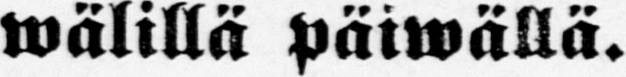wälillä päiwällä.
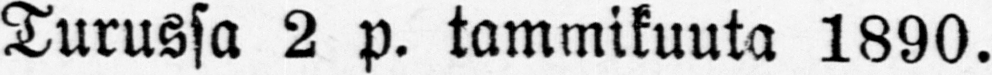Turussa 2 p. tammikuuta 1890.
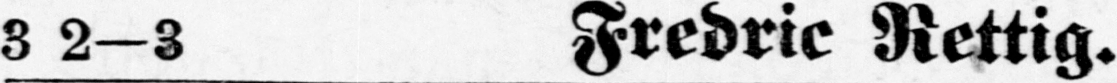3 2-3 Fredric Rettig.
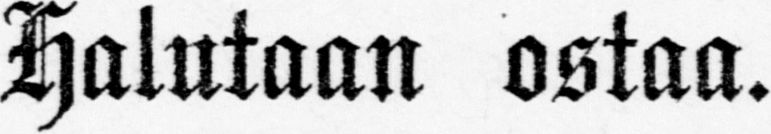Halutaan ostaa.
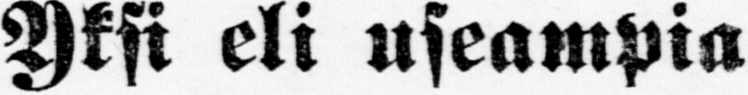Yksi eli useampia
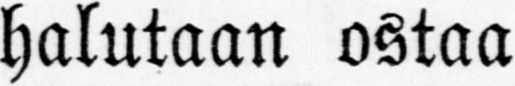halutaan ostaa
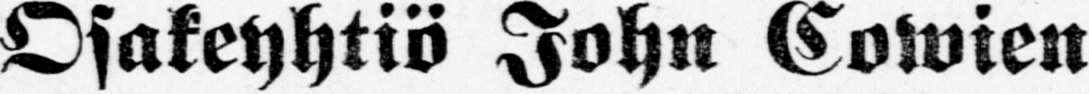Osakeyhtiö John Cowien
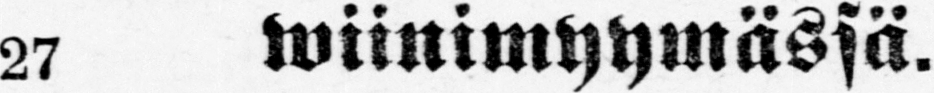27 wiinimyymässä.
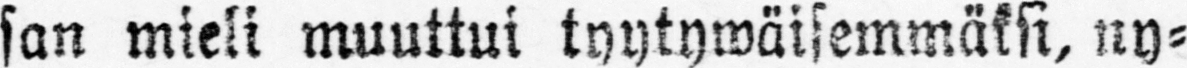san mieli muuttui tyytywäisemmäksi, ny-
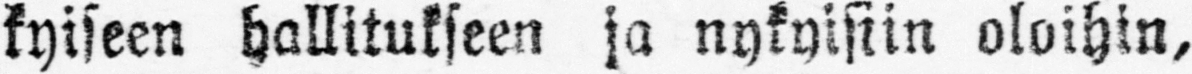kyiseen hallitukseen ja nykyisiin oloihin,
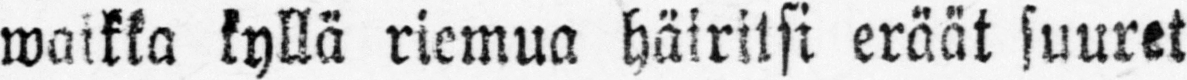waikka kyllä riemua häiritsi eräät suuret
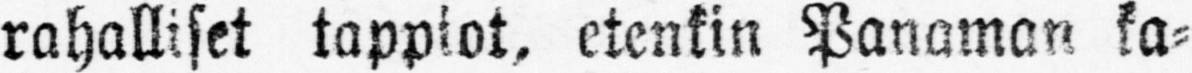rahalliset tappiot, etenkin Panaman kah
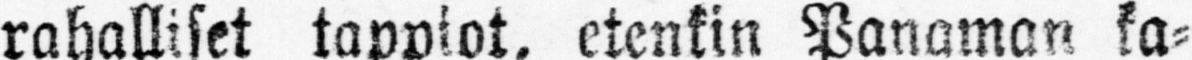nawan huono menestys. Mainitun ka-
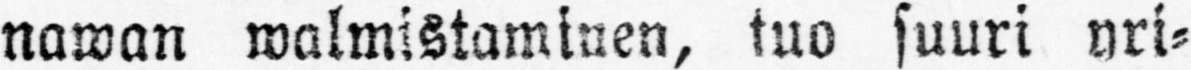nawan walmistaminen, tuo suuri yri-
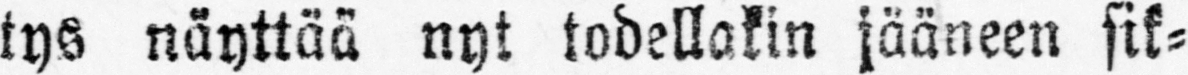tys näyttää nyt todellakin jääneen sik-
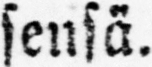sensä.
